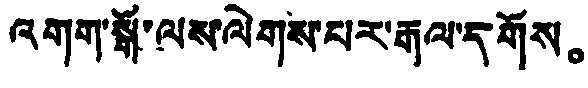འགག་སྒོ་ལས་ལེགས་པར་རྒལ་དགོས。
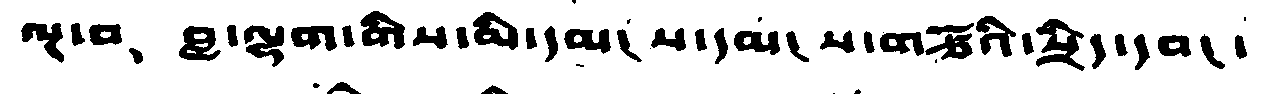ལྔ་བ、 བླ་ལྷག་གིས་མི་དམངས་དམངས་གཙོའི་སྲིད་དབང་
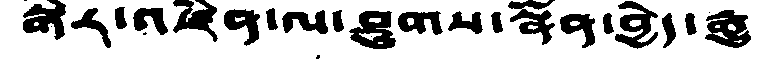སྒེར་འཛིན་ལ་ཤུགས་སྣོན་བྱེད་རྒྱུ
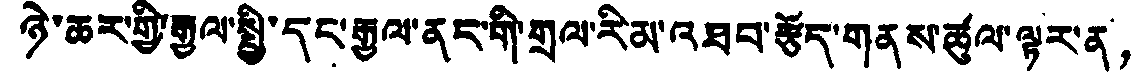ཉེ་ཆར་གྱི་རྒྱལ་སྤྱི་དང་རྒྱལ་ནང་གི་གྲལ་རིམ་འཐབ་རྩོད་གནས་ཚུལ་ལྟར་ན།
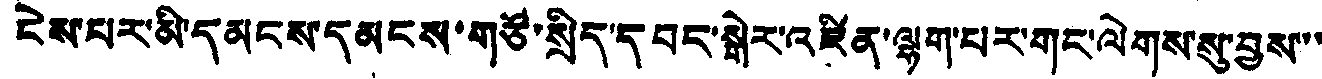ངེས་པར་མི་དམངས་དམངས་གཙོ་སྲིད་དབང་སྒེར་འཛིན་ལྷག་པར་གང་ལེགས་སུ་བྱས་་་
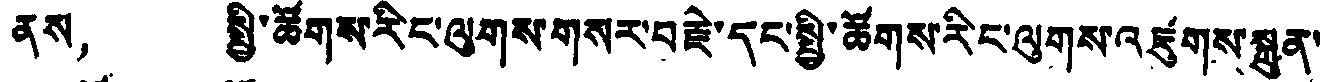ནས， སྤྱི་ཚོགས་རིང་ལུགས་གསར་བརྗེ་དང་སྤྱི་ཚོགས་རིང་ལུགས་འཛུགས་སྐྲུན་
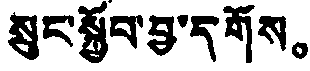སྲུང་སྐྱོབ་བྱ་དགོས。
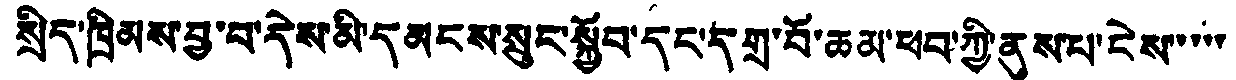སྲིད་ཁྲིམས་བྱ་བ་དེས་མི་དམངས་སྲུང་སྐྱོབ་དང་དགྲ་བོ་ཆམ་ཕབ་ཀྱི་ནུས་པ་ངེས་་་་་
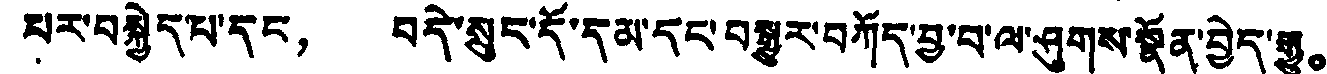པར་བསྐྱེད་པ་དང， བདེ་སྲུང་དོ་དམ་དང་བསྒྱུར་བཀོད་བྱ་བ་ལ་ཤུགས་སྣོན་བྱེད་རྒྱུ。
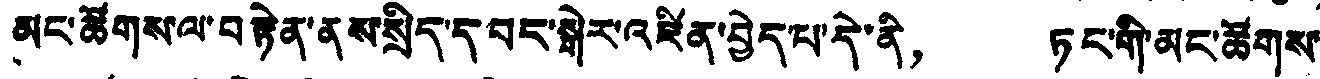མང་ཚོགས་ལ་བརྟེན་ནས་སྲིད་ད་བང་སྒེར་འཛིན་བྱེད་པ་དེ་ནི， ཏང་གི་མང་ཚོགས་
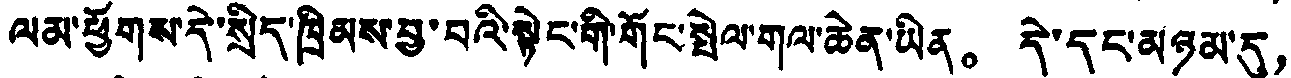ལམ་ཕྱོགས་དེ་སྲིད་ཁྲིམས་བྱ་བའི་སྟེང་གི་གོང་སྤེལ་གལ་ཆེན་ཡིན。 དེ་དང་མཉམ་དུ，
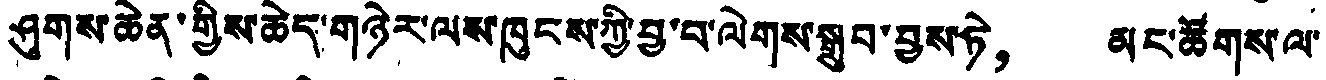ཤུགས་ཆེན་གྱིས་ཆེད་གཉེར་ལས་ཁུངས་ཀྱི་བྱ་བ་ལེགས་སྒྲུབ་བྱས་ཏེ， མང་ཚོགས་ལ་
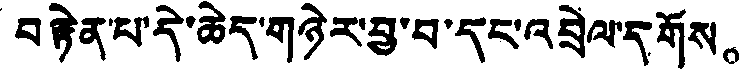བརྟེན་པ་དེ་ཆེད་གཉེར་བྱ་བ་དང་འབྲེལ་དགོས。
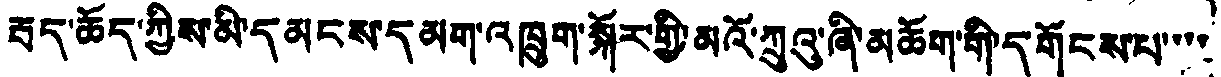རྦད་ཆོད་ཀྱིས་མི་དམངས་དམག་འཁྲུག་སྐོར་གྱི་མའོ་ཀྲུའུ་ཞི་མཆོག་གི་དགོངས་པ་་་་
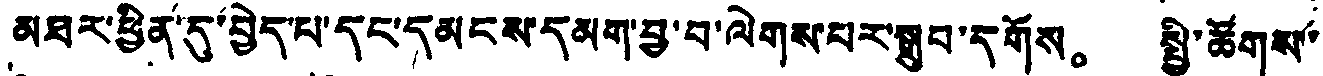མཐར་ཕྱིན་དུ་བྱེད་པ་དང་དམངས་དམག་བྱ་བ་ལེགས་པར་སྒྲུབ་དགོས。 སྤྱི་ཚོགས་
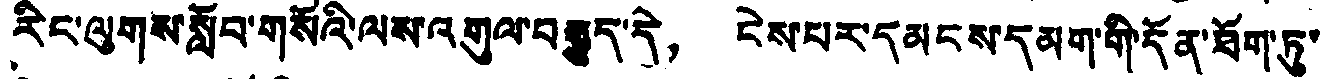རིང་ལུགས་སློབ་གསོའི་ལས་འགུལ་བརྒྱུད་དེ， ངེས་པར་དམངས་དམག་གི་དོན་ཐོག་ཏུ་
